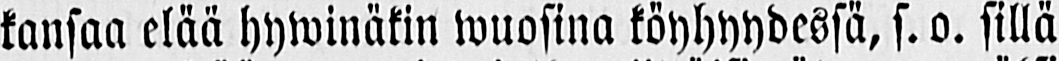kansaa elää hywinäkin wuosina köyhyydessä, s. o. sillä
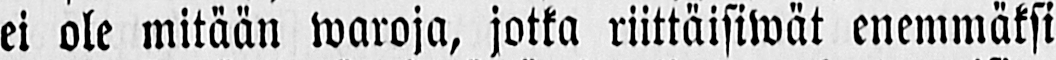ei ole mitään waroja, jotka riittäisiwät enemmäksi
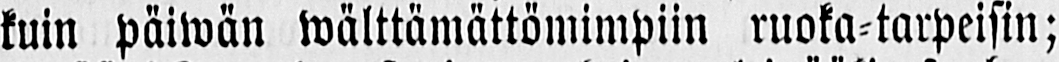kuin päiwän wälttämättömimpiin ruoka-tarpeisin;
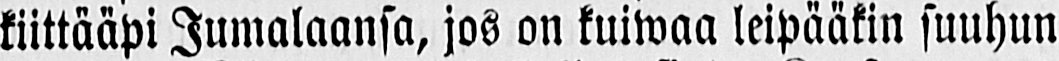kiittääpi Jumalaansa, jos on kuiwaa leipääkin suuhun
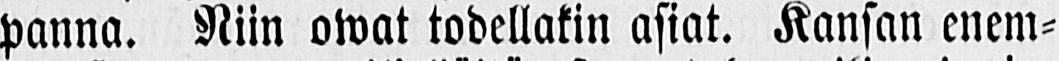panna. Niin owat todellakin asiat. Kansan enem-
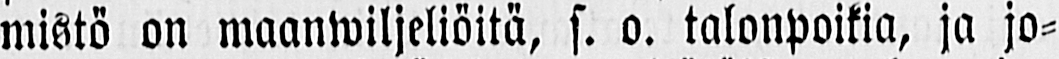mistö on maanwiljeliöitä, s. o. talonpoikia, ja jo-
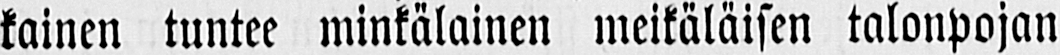kainen tuntee minkälainen meikäläisen talonpojan
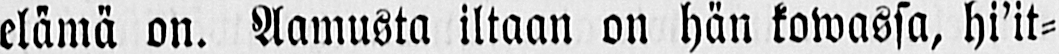elämä on. Aamusta iltaan on hän kowassa, hi'it-
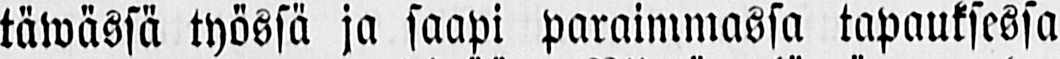täwässä työssä ja saapi paraimmassa tapauksessa
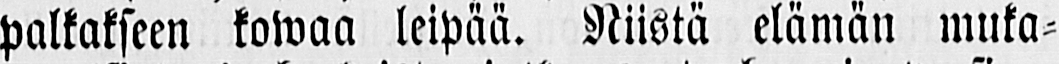palkakseen kowaa leipää. Niistä elämän muka-
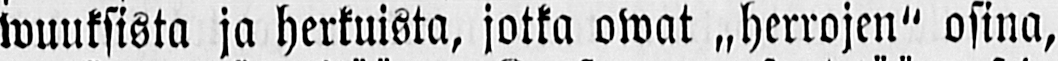wuuksista ja herkuista, jotka owat „herrojen" osina,
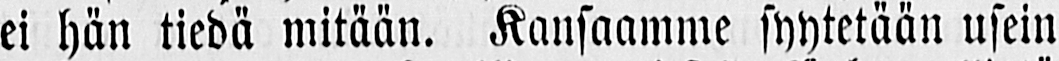ei hän tiedä mitään. Kansaamme syytetään usein
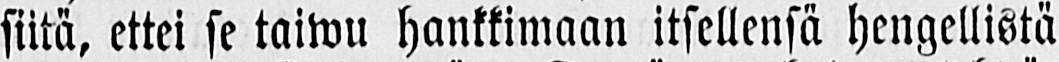siitä, ettei se taiwu hankkimaan itsellensä hengellistä
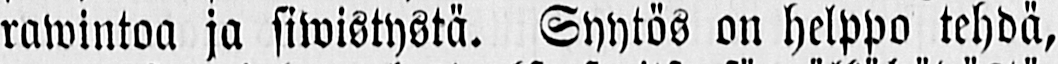rawintoa ja siwistystä. Syytös on helppo tehdä,
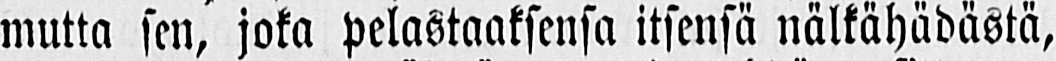mutta sen, joka pelastaaksensa itsensä nälkähädästä,
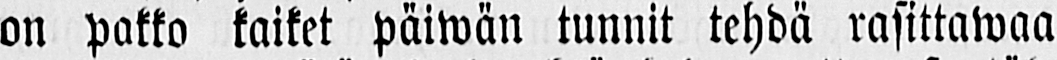on pakko kaiket päiwän tunnit tehdä rasittawaa
